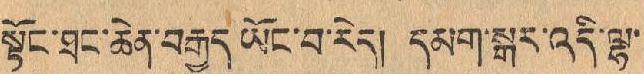སྟོང་ཐང་ཆེན་བརྒྱུད་ཡོང་བ་རེད། དམག་སྒར་འདི་ལྷ་
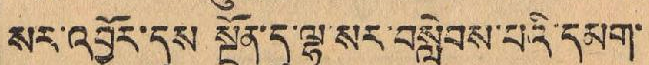སར་འབྱོར་དུས་ སྔོན་དུ་ལྷ་སར་བསླེབས་པའི་དམག་
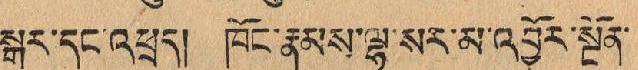སྒར་དང་འཕྲད། ཁོང་རྣམས་ལྷ་སར་མ་འབྱོར་སྔོན་
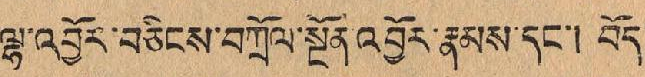ལྷ་འབྱོར་བཅིངས་བཀྲོལ་སྔོན་ འབྱོར་རྣམས་དང་། བོད་
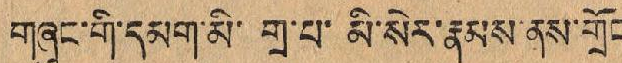གཞུང་གི་དམག་མི་ གྲྭ་པ་ མི་སེར་རྣམས་ནས་གྲོང་
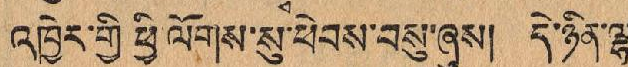འཁྱེར་གྱི ཕྱི་ལོགས་སུ་ཕེབས་བསུ་ཞུས། དེ་ཉིད་ལྷ་
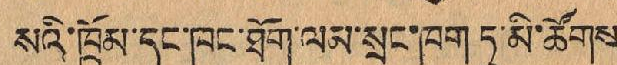སའི་ཁྲོམ་དང་ཁང་ཐོག་ལམ་སྲང་ཁག་ཏུ་མི་ཚོགས་
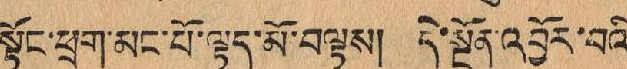སྟོང་ཕྲག་མང་པོ་ལྟད་མོ་བལྟས། དེ་སྔོན་འབྱོར་བའི་
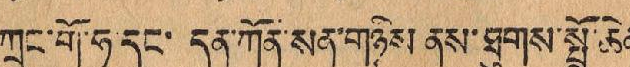ཀྲང་གོ་ཧ་དང་ དན་ཀོན་སན་གཉིས་ནས་ཐུགས་སྤྲོ་ཆེན་
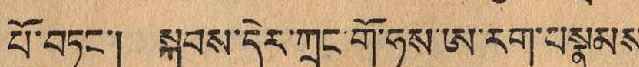པོ་གཏང་། སྐབས་དེར་ཀྲང་གོ་ཧས་ཨ་རག་པསྣམས་
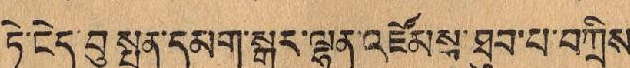ཏེ་ངེད་བུ སྤུན་དམག་སྒར་ལྷན་འཛོམས་ཐུབ་པ་བཀྲིས་
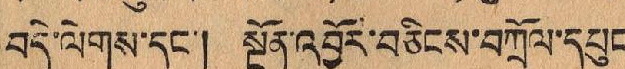བདེ་ལེགས་དང་། སྔོན་འབྱོར་བཅིངས་བཀྲོལ་དཔུང་
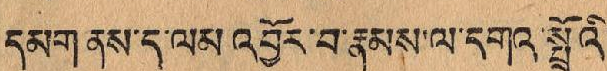དམག་ནས་ད་ལམ་འབྱོར་བ་རྣམས་ལ་དགའ་སྤྲོའི་
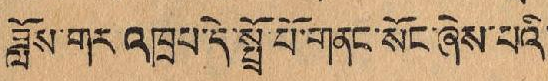ཟློས་གར འཁྲཔ་དེ་སྤྲོ་པོ་གནང་སོང་ཞེས་པའི་
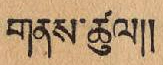གནས་ཚུལ།།
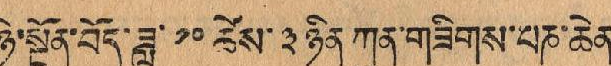ཉེ་སྔོན་བོད་ཟླ་ ༡༠ ཚེས་ ༣ ཉིན་ཀུན་གཟིགས་པཎ་ཆེན་
